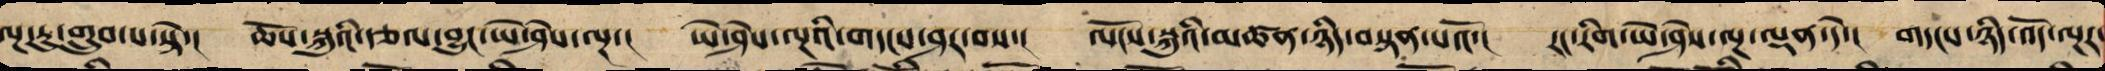ལྔ་རུ་གྲུབ་པ་སྟེ་། ཆོས་སྐུའི་རྩལ་བྱུང་ཡེ་ཤེས་ལྔ་། ཡེ་ཤེས་ལྔའི་གདངས་ཤར་བས་། ལོངས་སྐུའི་མཚན་ཉིད་བསྟན་པའོ་། རང་རིག་ཡེ་ཤེས་ལྔ་ལྡན་དེ་། གདངས་གཉིས་འོད་ལྔར་
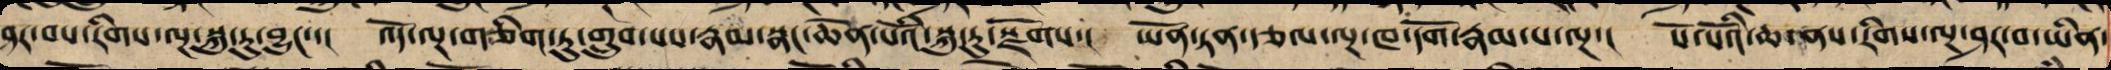ཤར་བས་རིགས་ལྔ་སྐུ་རུ་བྱུང་་། འོད་ལྔ་གཅིག་ཏུ་གྲུབ་པས་རྣམ་སྣང་ཆེན་པོའི་སྐུ་རུ་སྫོགས་། ཡོན་ཏན་རྩལ་ལྔ་ཁ་དོག་རྣམ་པ་ལྔ་། སོ་སོའི་ཆ་ནས་རིགས་ལྔ་ཤར་བ་ཡིན་
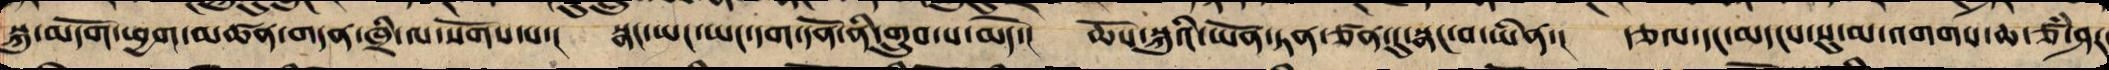སྐུ་མདོག་ཕྱག་མཚན་གདན་ཁྲི་ལ་སོགས་པ་། སྣང་ཡང་ཡང་དག་དོན་ནི་གྲུབ་པ་མེད་། ཆོས་སྐུའི་ཡོན་ཏན་ཙན་དུ་སྣང་བ་ཡིན་། རྩལ་དང་མདངས་སུ་མ་འགགས་ཆ་ཙཾ་ཤར་
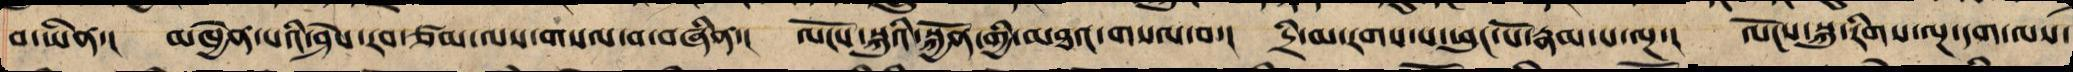བ་ཡིན་། མཁྱེན་པའི་ཤེས་རབ་ཙམ་ལས་གསལ་བཞིན་། ལོངས་སྐུའི་སྐྱོན་གྱི་མཐའ་གསལ་བ་། དྲི་མ་རགས་པའི་ཕུང་པོ་རྣམ་པ་ལྔ་། ལོངས་སྐུ་རིགས་ལྔ་དག་ལས་
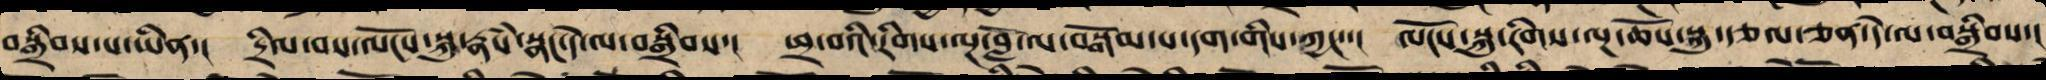བསྒྲིབས་པ་ཡིན་། དྲིལ་བས་ལོངས་སྐུ་རྣཾས་སྣང་དེ་ལ་བསྒྲིབས་། ཕྲ་བས་རིགས་ལྔ་བློ་ལ་བསྒོམ་པ་དག་གིས་ཀྱང་་། ལོངས་སྐུ་རིགས་ལྔ་ཆོས་སྐུ་རྩལ་ཅན་དེ་ལ་བསྒྲིབས་།
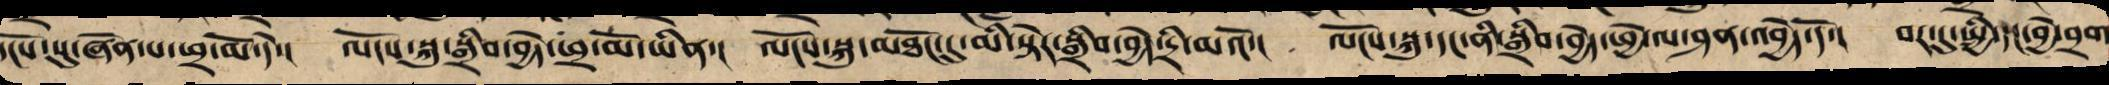དངོས་སུ་ཞེན་པ་ཕྲ་མོ་དེ་། ལོངས་སྐུ་སྒྲིབ་བྱེད་ཕྲ་མོ་ཡིན་། ལོངས་སྐུ་མཐོང་དུ་མི་སྟེར་སྒྲིབ་བྱེད་དྲི་མའོ་། ལོངས་སྐུ་དང་ནི་སྒྲིབ་བྱེད་ཕྱེ་ལ་ཤན་འབྱེད་དོ་། བར་དུ་སྤྱི་དང་བྱེ་བྲག
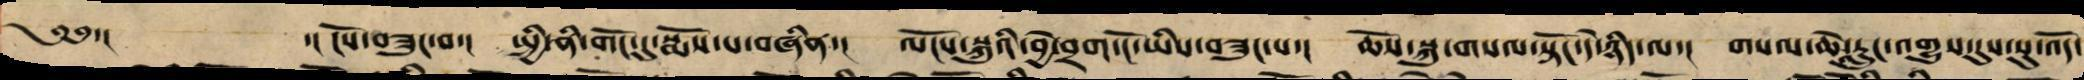༄༅་། ་། ངོས་བཟུང་བ་། སྤྱི་ནི་གོང་དུ་སྨོས་པ་བཞིན་། ལོངས་སྐུའི་བྱེ་བྲག་ངོ་ཡིས་བཟུང་པ་། ཆོས་སྐུ་གསལ་སྟོང་དེ་ཉིད་ལ་། གསལ་ཆ་རླུང་འགྱུས་དུས་སུ་འོད་
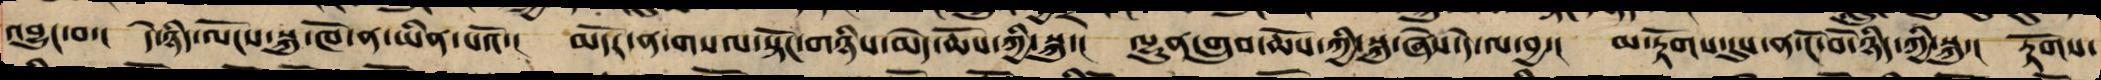འབྱུང་བ་། དེ་ཉིད་ལོངས་སྐུ་ཁོ་ན་ཡིན་པའོ་། མདོར་ན་གསལ་སྟོང་གཉིས་མེད་ཆོས་ཀྱི་སྐུ་། ལྷུན་གྲུབ་ཆོས་ཀྱི་སྐུ་ཞེས་དེ་ལ་བྱ་། མ་རྟོགས་དུས་ན་ངོ་བོ་ཉིད་ཀྱི་སྐུ་། རྟོགས་
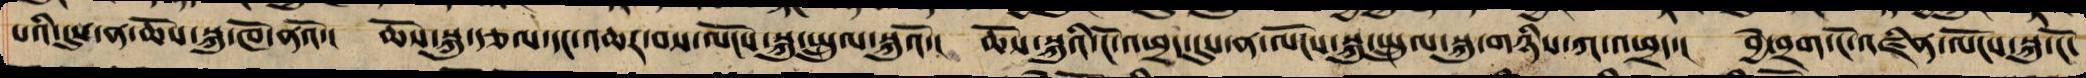པའི་དུས་ན་ཆོས་སྐུ་ཁོ་ནའོ་། ཆོས་སྐུ་རྩལ་དང་འཆར་བས་ལོངས་སྐུ་སྤྲུལ་སྐུའོ་། ཆོས་སྐུ་ངོ་འཕྲོད་དུས་ན་ལོངས་སྐུ་སྤྲུལ་སྐུ་གཉིས་ཀ་འཕྲད་། བྱེ་བྲག་ངོས་འཛིན་ལོངས་སྐུ་ངོ་
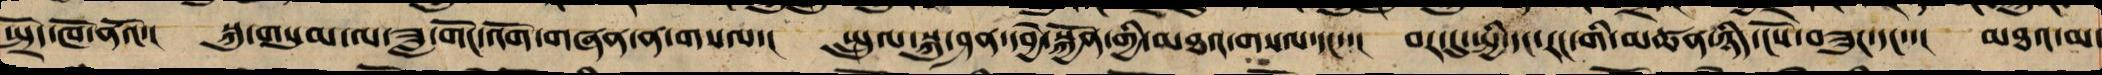སྤྲོད་ཁོ་ནའོ་། སྐུ་གསུམ་ལ་ཟླ་གོང་འོག་གཞན་ན་གསལ་། སྤྲུལ་སྐུ་ཤན་དབྱེ་སྐྱོན་གྱི་མཐའ་བསལ་དང་་། བར་དུ་སྤྱི་དང་རང་གི་མཚན་ཉིད་ངོས་བཟུང་དང་་། མཐའ་མ་
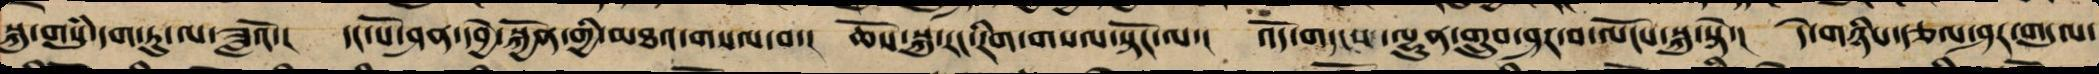སྐུ་གསུྃ་དག་ཏུ་ལ་བཟླ་བའོ་། དང་པོ་ཤན་དབྱེ་སྐྱོན་གྱི་མཐའ་བསལ་བ་། ཆོས་སྐུ་རང་རིག་གསལ་སྟོང་ལ་། འོད་གདངས་ལྷུན་གྲུབ་ཤར་བ་ལོངས་སྐུ་སྟེ་། དེ་གཉིས་རྩལ་ཤར་གདུལ་
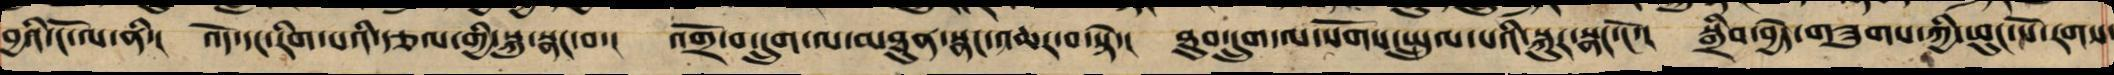བྱའི་ངོ་ལ་ནི་། འོད་དང་རིག་པའི་རྩལ་གྱིས་སྐུར་སྣང་བ་། འགྲོ་བ་དྲུག་ལ་མཐུན་སྣང་འཆར་བ་སྟེ་། ཐུབ་དྲུག་ལ་སོགས་སྤྲུལ་པའི་སྐུར་སྣང་ངོ་་། སྒྲིབ་བྱེད་གཟུགས་ཀྱི་ཕུང་པོ་རགས་
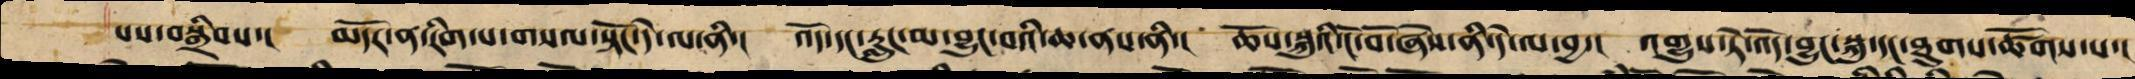པས་བསྒྲིབས་། མདོར་ན་རིག་པ་གསལ་སྟོང་དེ་ལ་ནི་། འོད་དང་རླུང་མ་བྱུང་བའི་ཆ་ནས་ནི་། ཆོས་སྐུའི་ངོ་བོ་ཞེས་ནི་དེ་ལ་བྱ་། འགྱུས་ཏེ་འོད་བྱུང་སྐུ་དང་ཐུགས་ཚོགས་པ།
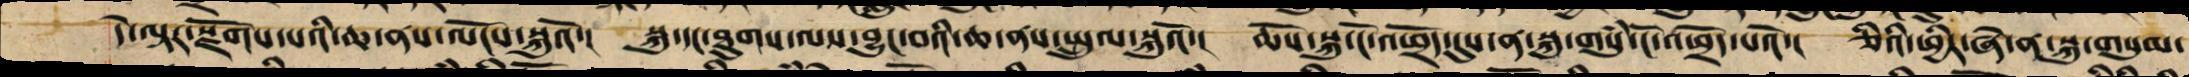དེ་ལྟར་རྫོགས་པའི་ཆ་ནས་ལོངས་སྐུའོ་། སྐུ་དང་ཐུགས་ལས་བྱུང་བའི་ཆ་ནས་སྤྲུལ་སྐུའོ་། ཆོས་སྐུ་ངོ་འཕྲོད་དུས་ན་སྐུ་གསུམ་ངོ་འཕྲོད་པའོ་། ཅིའི་ཕྱིར་ཞེ་ན་སྐུ་གསུམ་
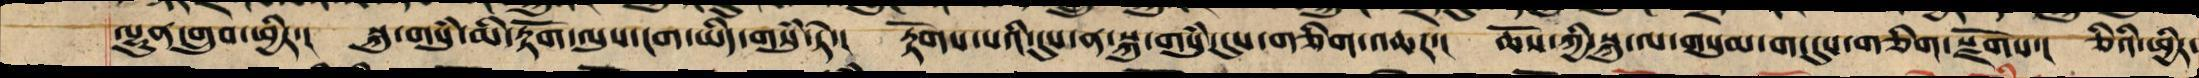ལྷུན་གྲུབ་ཕྱིར་། སྐུ་གསུྃ་མ་རྟོགས་ལུས་ངག་ཡིད་གསུ་སྟེ་། རྟོགས་པའི་དུས་ན་སྐུ་གསུྃ་དུས་གཅིག་འཆར་། ཆོས་ཀྱི་སྐུ་ལ་གསུམ་ག་དུས་གཅིག་རྫོགས་། ཅིའི་ཕྱིར་
